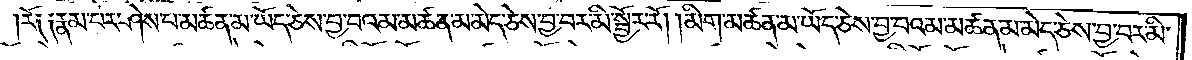རོ༑ ༑རྣམ་པར་ཤེས་པ་མཚན་མ་ཡོད་ཅེས་བྱ་བའམ་མཚན་མ་མེད་ཅེས་བྱ་བར་མི་སྦྱོར་རོ། །མིག་མཚན་མ་ཡོད་ཅེས་བྱ་བའམ་མཚན་མ་མེད་ཅེས་བྱ་བར་མི་
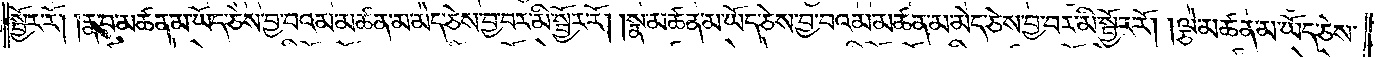སྦྱོར་རོ། །རྣ་བ་མཚན་མ་ཡོད་ཅེས་བྱ་བའམ་མཚན་མ་མེད་ཅེས་བྱ་བར་མི་སྦྱོར་རོ། །སྣ་མཚན་མ་ཡོད་ཅེས་བྱ་བའམ་མཚན་མ་མེད་ཅེས་བྱ་བར་མི་སྦྱོར་རོ། །ལྕེ་མཚན་མ་ཡོད་ཅེས་
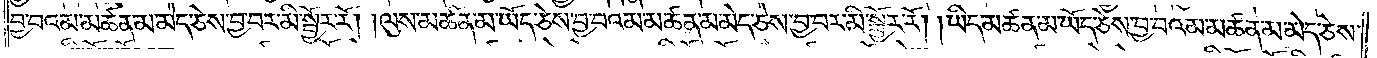བྱ་བའམ་མཚན་མ་མེད་ཅེས་བྱ་བར་མི་སྦྱོར་རོ། །ལུས་མཚན་མ་ཡོད་ཅེས་བྱ་བའམ་མཚན་མ་མེད་ཅེས་བྱ་བར་མི་སྦྱོར་རོ། །ཡིད་མཚན་མ་ཡོད་ཅེས་བྱ་བའམ་མཚན་མ་མེད་ཅེས་
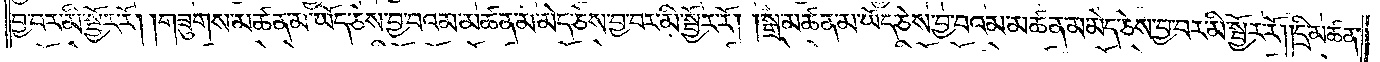བྱ་བར་མི་སྦྱོར་རོ། །གཟུགས་མཚན་མ་ཡོད་ཅེས་བྱ་བའམ་མཚན་མ་མེད་ཅེས་བྱ་བར་མི་སྦྱོར་རོ། །སྒྲ་མཚན་མ་ཡོད་ཅེས་བྱ་བའམ་མཚན་མ་མེད་ཅེས་བྱ་བར་མི་སྦྱོར་རོ། །དྲི་མཚན་
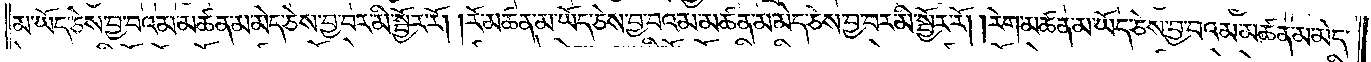མ་ཡོད་ཅེས་བྱ་བའམ་མཚན་མ་མེད་ཅེས་བྱ་བར་མི་སྦྱོར་རོ། །རོ་མཚན་མ་ཡོད་ཅེས་བྱ་བའམ་མཚན་མ་མེད་ཅེས་བྱ་བར་མི་སྦྱོར་རོ། །རེག་མཚན་མ་ཡོད་ཅེས་བྱ་བའམ་མཚན་མ་མེད་
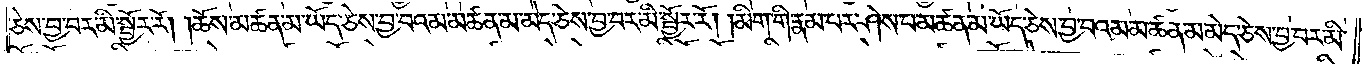ཅེས་བྱ་བར་མི་སྦྱོར་རོ། །ཆོས་མཚན་མ་ཡོད་ཅེས་བྱ་བའམ་མཚན་མ་མེད་ཅེས་བྱ་བར་མི་སྦྱོར་རོ། །མིག་གི་རྣམ་པར་ཤེས་པ་མཚན་མ་ཡོད་ཅེས་བྱ་བའམ་མཚན་མ་མེད་ཅེས་བྱ་བར་མི་
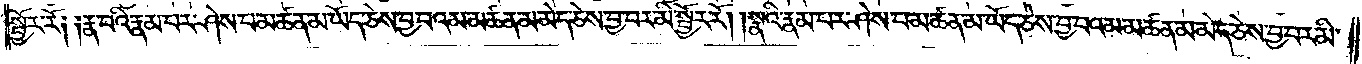སྦྱོར་རོ༑ ༑རྣ་བའི་རྣམ་པར་ཤེས་པ་མཚན་མ་ཡོད་ཅེས་བྱ་བའམ་མཚན་མ་མེད་ཅེས་བྱ་བར་མི་སྦྱོར་རོ། །སྣའི་རྣམ་པར་ཤེས་པ་མཚན་མ་ཡོད་ཅེས་བྱ་བའམ་མཚན་མ་མེད་ཅེས་བྱ་བར་མི་
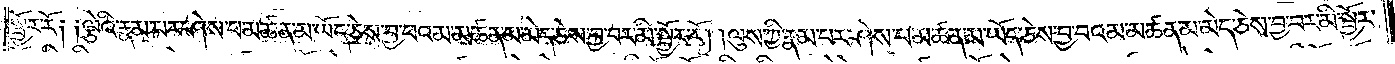སྦྱོར་རོ༑ ༑ལྕེའི་རྣམ་པར་ཤེས་པ་མཚན་མ་ཡོད་ཅེས་བྱ་བའམ་མཚན་མ་མེད་ཅེས་བྱ་བར་མི་སྦྱོར་རོ། །ལུས་ཀྱི་རྣམ་པར་ཤེས་པ་མཚན་མ་ཡོད་ཅེས་བྱ་བའམ་མཚན་མ་མེད་ཅེས་བྱ་བར་མི་སྦྱོར་
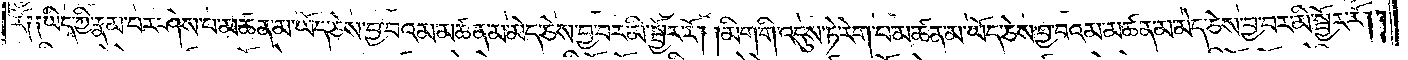རོ༑ ༑ཡིད་ཀྱི་རྣམ་པར་ཤེས་པ་མཚན་མ་ཡོད་ཅེས་བྱ་བའམ་མཚན་མ་མེད་ཅེས་བྱ་བར་མི་སྦྱོར་རོ། །མིག་གི་འདུས་ཏེ་རེག་པ་མཚན་མ་ཡོད་ཅེས་བྱ་བའམ་མཚན་མ་མེད་ཅེས་བྱ་བར་མི་སྦྱོར་རོ། །
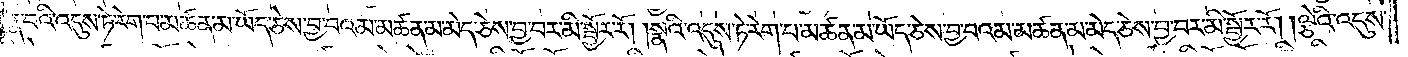རྣ་བའི་འདུས་ཏེ་རེག་པ་མཚན་མ་ཡོད་ཅེས་བྱ་བའམ་མཚན་མ་མེད་ཅེས་བྱ་བར་མི་སྦྱོར་རོ། །སྣའི་འདུས་ཏེ་རེག་པ་མཚན་མ་ཡོད་ཅེས་བྱ་བའམ་མཚན་མ་མེད་ཅེས་བྱ་བར་མི་སྦྱོར་རོ། །ལྕེའི་འདུས་
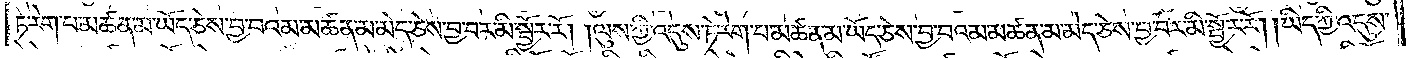ཏེ་རེག་པ་མཚན་མ་ཡོད་ཅེས་བྱ་བའམ་མཚན་མ་མེད་ཅེས་བྱ་བར་མི་སྦྱོར་རོ། ལུས་ཀྱི་འདུས་ཏེ་རེག་པ་མཚན་མ་ཡོད་ཅེས་བྱ་བའམ་མཚན་མ་མེད་ཅེས་བྱ་བར་མི་སྦྱོར་རོ། །ཡིད་ཀྱི་འདུས་
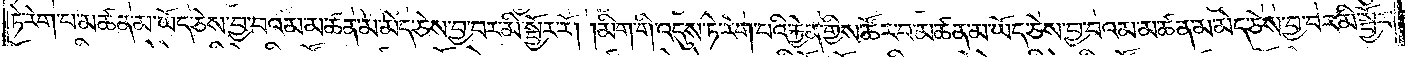ཏེ་རེག་པ་མཚན་མ་ཡོད་ཅེས་བྱ་བའམ་མཚན་མ་མེད་ཅེས་བྱ་བར་མི་སྦྱོར་རོ། །མིག་གི་འདུས་ཏེ་རེག་པའི་རྐྱེན་གྱིས་ཚོར་བ་མཚན་མ་ཡོད་ཅེས་བྱ་བའམ་མཚན་མ་མེད་ཅེས་བྱ་བར་མི་སྦྱོར་
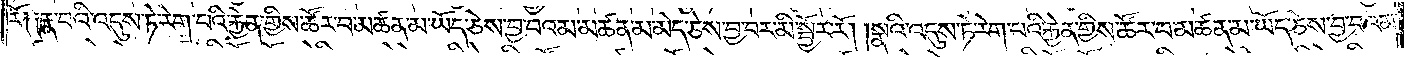རོ༑ ༑རྣ་བའི་འདུས་ཏེ་རེག་པའི་རྐྱེན་གྱིས་ཚོར་བ་མཚན་མ་ཡོད་ཅེས་བྱ་བའམ་མཚན་མ་མེད་ཅེས་བྱ་བར་མི་སྦྱོར་རོ། །སྣའི་འདུས་ཏེ་རེག་པའི་རྐྱེན་གྱིས་ཚོར་བ་མཚན་མ་ཡོད་ཅེས་བྱ་བའམ་
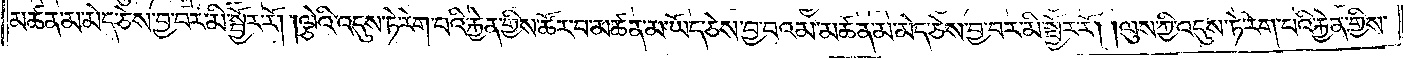མཚན་མ་མེད་ཅེས་བྱ་བར་མི་སྦྱོར་རོ། །ལྕེའི་འདུས་ཏེ་རེག་པའི་རྐྱེན་གྱིས་ཚོར་བ་མཚན་མ་ཡོད་ཅེས་བྱ་བའམ་མཚན་མ་མེད་ཅེས་བྱ་བར་མི་སྦྱོར་རོ། །ལུས་ཀྱི་འདུས་ཏེ་རེག་པའི་རྐྱེན་གྱིས་
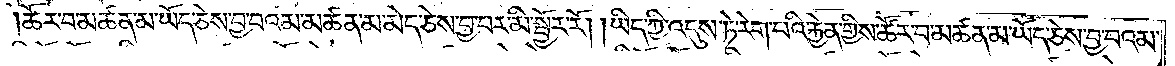ཚོར་བ་མཚན་མ་ཡོད་ཅེས་བྱ་བའམ་མཚན་མ་མེད་ཅེས་བྱ་བར་མི་སྦྱོར་རོ། །ཡིད་ཀྱི་འདུས་ཏེ་རེག་པའི་རྐྱེན་གྱིས་ཚོར་བ་མཚན་མ་ཡོད་ཅེས་བྱ་བའམ་
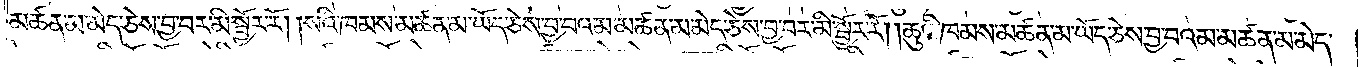མཚན་མ་མེད་ཅེས་བྱ་བར་མི་སྦྱོར་རོ། །སའི་ཁམས་མཚན་མ་ཡོད་ཅེས་བྱ་བའམ་མཚན་མ་མེད་ཅེས་བྱ་བར་མི་སྦྱོར་རོ། །ཆུའི་ཁམས་མཚན་མ་ཡོད་ཅེས་བྱ་བའམ་མཚན་མ་མེད་
